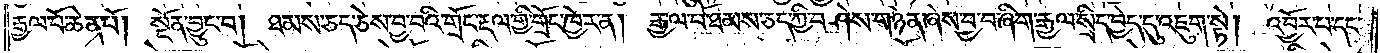རྒྱལ་པོ་ཆེན་པོ། སྔོན་བྱུང་བ། ཐམས་ཅད་ཅེས་བྱ་བའི་གྲོང་རྡལ་གྱི་གྲོང་ཁྱེར་ན། རྒྱལ་པོ་ཐམས་ཅད་ཀྱི་བཤེས་གཉེན་ཞེས་བྱ་བ་ཞིག་རྒྱལ་སྲིད་བྱེད་དུ་འཇུག་སྟེ། འབྱོར་པ་དང་
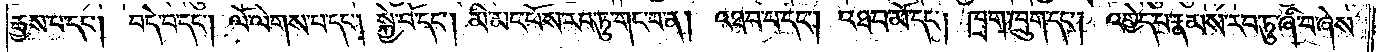རྒྱས་པ་དང༌། བདེ་བ་དང༌། ལོ་ལེགས་པ་དང༌། སྐྱེ་བོ་དང༌། མི་མང་པོས་རབ་ཏུ་གང་བ་ན། འཐབ་པ་དང༌། འཐབ་མོ་དང༌། ཁྲག་ཁྲུག་དང༌། འགྱེད་པ་རྣམས་རབ་ཏུ་ཞི་བ་ཞེས་
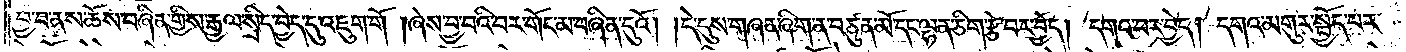བྱ་བ་ནས་ཆོས་བཞིན་གྱིས་རྒྱལ་སྲིད་བྱེད་དུ་འཇུག་གོ །ཞེས་བྱ་བའི་བར་གོང་མ་བཞིན་དུའོ། །དེ་དུས་གཞན་ཞིག་ན་བཙུན་མོ་དང་ལྷན་ཅིག་རྩེ་བར་བྱེད། དགའ་བར་བྱེད། དགའ་མགུར་སྤྱོད་པར་
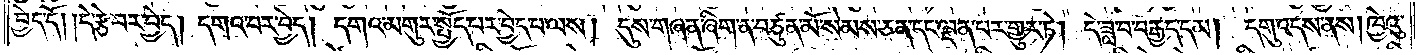བྱེད་དོ། །དེ་རྩེ་བར་བྱེད། དགའ་བར་བྱེད། དགའ་མགུར་སྤྱོད་པར་བྱེད་པ་ལས། དུས་གཞན་ཞིག་ན་བཙུན་མོ་སེམས་ཅན་དང་ལྡན་པར་གྱུར་ཏེ། དེ་ཟླ་བ་བརྒྱད་དམ། དགུ་འདས་ནས། ཁྱེའུ་
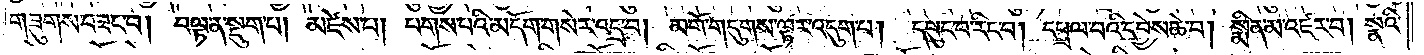གཟུགས་བཟང་བ། བལྟ་ན་སྡུག་པ། མཛེས་པ། པགས་པའི་མདོག་གསེར་འདྲ་བ། མགོ་གདུགས་ལྟར་འདུག་པ། དཔུང་པ་རིང་བ། དཔྲལ་བའི་དབྱེས་ཆེ་བ། སྨིན་མ་འཛར་བ། སྣའི་
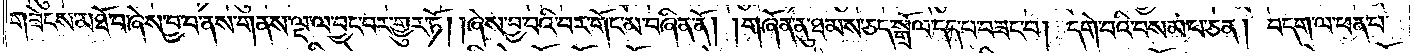གཟེངས་མཐོ་བ་ཞེས་བྱ་བ་ནས་གནས་ལྔ་ལ་བྱང་བར་གྱུར་ཏོ། །ཞེས་བྱ་བའི་བར་གོང་མ་བཞིན་ནོ། །གཞོན་ནུ་ཐམས་ཅད་སྒྲོལ་དད་པ་བཟང༌། དགེ་བའི་བསམ་པ་ཅན། བདག་ལ་ཕན་པ་
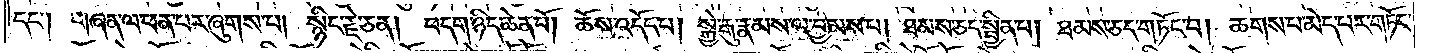དང༌། གཞན་ལ་ཕན་པར་ཞུགས་པ། སྙིང་རྗེ་ཅན། བདག་ཉིད་ཆེན་པོ། ཆོས་འདོད་པ། སྐྱེ་རྒུ་རྣམས་ལ་བྱམས་པ། ཐམས་ཅད་སྦྱིན་པ། ཐམས་ཅད་གཏོང་བ། ཆགས་པ་མེད་པར་གཏོང་
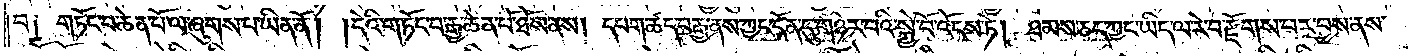བ༑ གཏོང་བ་ཆེན་པོ་ལ་ཞུགས་པ་ཡིན་ནོ། །དེའི་གཏོང་བ་རྒྱ་ཆེན་པོ་ཐོས་ནས། དཔག་ཚད་བརྒྱ་ནས་ཀྱང་དོན་དུ་གཉེར་བའི་སྐྱེ་བོ་འོངས་ཏེ། ཐམས་ཅད་ཀྱང་ཡིད་ལ་རེ་བ་རྫོགས་པར་བྱས་ནས་
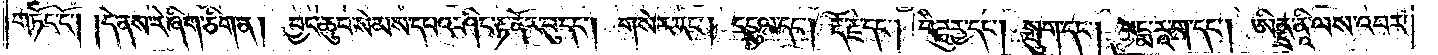གཏོང་ངོ༌། །དེ་ནས་རེ་ཞིག་ཅིག་ན། བྱང་ཆུབ་སེམས་དཔའ་ཤིང་རྟ་ནོར་བུ་དང༌། གསེར་དང༌། དངུལ་དང༌། རྡོ་རྗེ་དང༌། བཻ་ཌཱུརྱ་དང༌། སྤུག་དང༌། པདྨ་རཱ་ག་དང༌། ཨིནྡྲ་ནཱི་ལས་འབར་
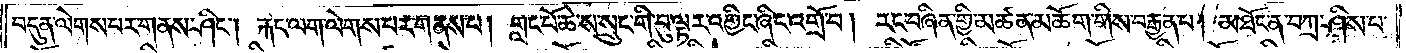བདུན་ལེགས་པར་གནས་ཤིང༌། རྐང་ལག་ལེགས་པར་གནས་པ། གླང་པོ་ཆེ་ས་སྲུང་གི་བུ་ལྟར་འགྱིང་ཞིང་འགྲོ་བ། རང་བཞིན་གྱི་མཚན་མཆོག་གིས་བརྒྱན་པ། མཐོང་ན་བཀྲ་ཤིས་པ་
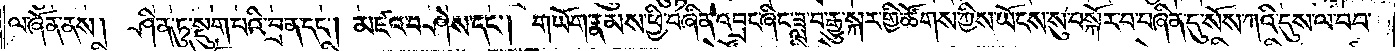ལ་ཞོན་ནས། ཤིན་ཏུ་སྡུག་པའི་བྲན་དང༌། མཛའ་བཤེས་དང༌། གཡོག་རྣམས་ཕྱི་བཞིན་འབྲང་ཞིང་ཟླ་བ་རྒྱུ་སྐར་གྱི་ཚོགས་ཀྱིས་ཡོངས་སུ་བསྐོར་བ་བཞིན་དུ་སོས་ཀའི་དུས་ལ་བབ་
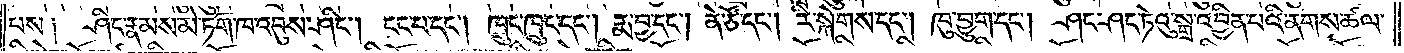པས༑ ཤིང་རྣམས་མེ་ཏོག་ཁ་འབུས་ཤིང༌། ངང་པ་དང༌། ཁྲུང་ཁྲུང་དང༌། རྨ་བྱ་དང༌། ནེ་ཙོ་དང༌། རི་སྐེགས་དང༌། ཁུ་བྱུག་དང༌། ཤང་ཤང་ཏེའུ་སྒྲ་འབྱིན་པའི་ནགས་ཚལ་
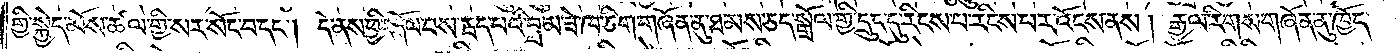གྱི་སྐྱེད་མོས་ཚལ་གྱི་སར་སོང་བ་དང༌། དེ་ནས་ཕྱིར་རྒོལ་བས་རྦད་པའི་བྲམ་ཟེ་ཁ་ཅིག་གཞོན་ནུ་ཐམས་ཅད་སྒྲོལ་གྱི་དྲུང་དུ་རིངས་པ་རིངས་པར་འོངས་ནས། རྒྱལ་རིགས་གཞོན་ནུ་ཁྱོད་
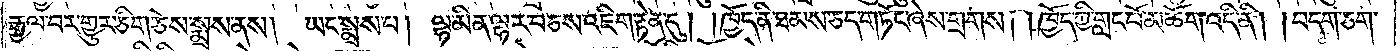རྒྱལ་བར་གྱུར་ཅིག་ཅེས་སྨྲས་ནས། ཡང་སྨྲས་པ། ལྷ་མིན་ལྷར་བཅས་འཇིག་རྟེན་དུ། །ཁྱོད་ནི་ཐམས་ཅད་གཏོང་ཞེས་གྲགས། །ཁྱོད་ཀྱི་གླང་པོ་མཆོག་འདི་ནི། །བདག་ཅག་
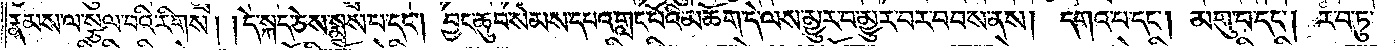རྣམས་ལ་སྩལ་བའི་རིགས། །དེ་སྐད་ཅེས་སྨྲས་པ་དང༌། བྱང་ཆུབ་སེམས་དཔའ་གླང་པོའི་མཆོག་དེ་ལས་མྱུར་བ་མྱུར་བར་བབས་ནས། དགའ་བ་དང༌། མགུ་བ་དང༌། རབ་ཏུ་
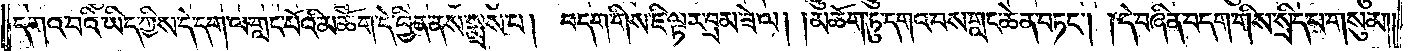དགའ་བའི་ཡིད་ཀྱིས་དེ་དག་ལ་གླང་པོའི་མཆོག་དེ་བྱིན་ནས་སྨྲས་པ། བདག་གིས་ཇི་ལྟར་བྲམ་ཟེ་ལ། །མཆོག་ཏུ་དགའ་བས་གླང་ཆེན་བཏང༌། །དེ་བཞིན་བདག་གིས་སྲིད་པ་གསུམ༎
